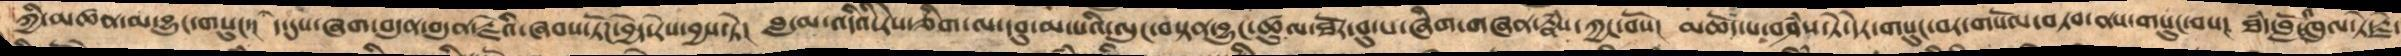ཀྱི་མཚན་མ་བྱུང་གསུང་།  དེ་དུས་ཞག་བདུན་བདུན་རྗེའི་ཞབས་ཏོཌ་བྱེད་རེས་བྱས་ཏེ།  བླ་མ་འདིའི་རེས་ཅིག་ལ་དབུ་མ་པའི་ལུང་བསྟན་བྱུང་ཚུལ་ཐོར་བུ་པ་ཞིག་གཞན་རྣཾས་ཀྱང་བོས།  མཆོད་པ་བཤཾས་ཏེ་དེར་གསུང་བར་གསོལ་བ་བཏབ་ནས་གསུང་བས།  ཐཾད་བློ་འཁུལ་ཏེ་རྗེ་
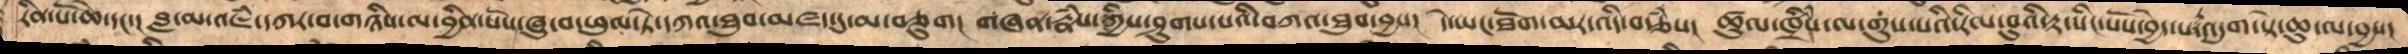རིན་པོ་ཆེ་དང་།  བླ་མ་འཇཾ་དཀར་བ་གཉིས་ལ་བྱིན་པོས་ཞུ་བ་ཕུལ་ཏེ་དཀའ་ཐུབ་མཛད་དུ་མ་བཅུག།  གཞན་རྣཾས་ཀྱིས་ཤུགས་པའི་དཀའ་ཐུབ་བྱས།  དེ་ཡང་ཐོག་མར་འདི་བརྩཾས།  ཚུལ་ཁྲིཾས་ལ་གུས་པས་རིལ་བུའི་རྟ་སིང་པོས་བྱེད་པ་འདུག་སྟེ་ཆུ་ལ་བྱས།
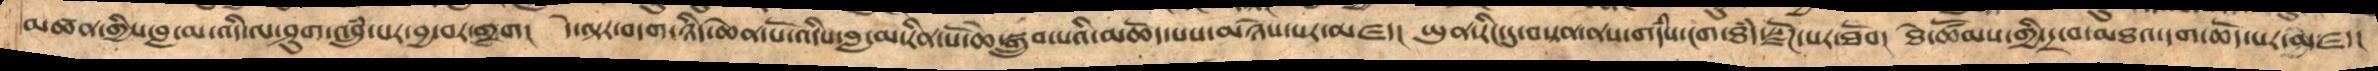མཚན་གྱིས་བླ་མ་འདི་ལ་ཤུག་འབྲུཾ་པ་བྱ་བར་གྲག།  དེ་ལྟར་བདག་ཉིད་ཆེན་པོ་འདིས་བླ་མ་རིན་པོ་ཆེ་སྒྲུབ་པའི་མཆོད་པས་མཉེས་པར་མཛད།  ཡུན་རིང་དུ་བསྟན་ནས་གདཾས་ངག་ཐཾད་སྫོཌ་པར་ཐོབ།  ཐེ་ཚོམས་གྱི་དྲ་བ་མཐའ་དག་ཆོད་པར་མཛད།
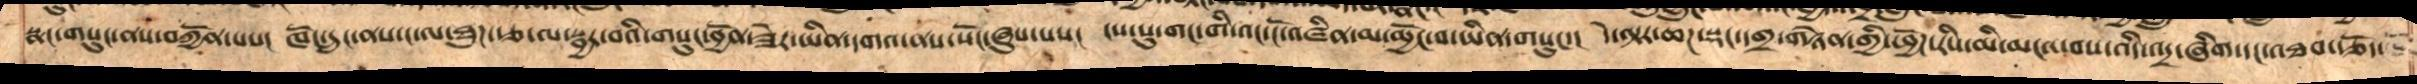སྣང་གསུང་ནས་བཀྱོན་པས། ཁོང་དྲུང་ནས་ང་ལ་ཐུཌ་རྩ་ལ་སྦྱར་བའི་གསུང་བྱོན་ཟེར་ཡིན་དགའ་ནས་སོང་ཞུས་པས།  ངས་སུ་གང་གི་འང་ངོ་འཛིན་མ་མྱོང་བ་ཡིན་གསུང་། དེ་ལྟར་ཆཌ་སྡང་དགྲ་གཉེན་གྱི་ཕྱོཌ་རིས་མི་མངའ་བས་འདི་འདྲ་ཞིག་དང་འཐབ་རྩོད་
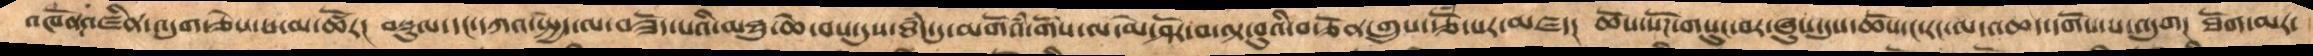འཁོན་འཛིན་འདུག་ཅེས་པ་མ་ཚོར།  བསྡུལ་དང་དཀའ་སྤྱད་ལ་བཟོད་པའི་མཐུ་ཆེ་བས་དུས་ཐཾད་དུ་མགོའཾ་གོས་ལ་མེ་ཤོར་བ་ལྟ་བུའི་བརྩོན་འགྲུས་རྩོཾ་པར་མཛད།  ཆོས་སོཌ་གསུང་བར་ཞུས་དུས་ཆོས་ང་རང་ལ་འཆད་དགོས་པར་འདུག  ཐོག་མར་
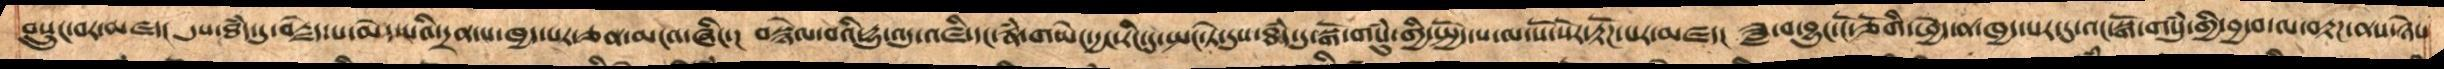བསྲུང་བར་མཛད།  དུས་ཐཾད་དུ་བརྗེད་པ་མེད་པའི་དྲན་པ་ཁྱད་པར་ཅན་མངའ་ཞིང་།  བསྙེལ་བའི་དྱུ་འདུ་འཛི་དང་རྣཾ་གཡེང་དྱང་རིང་དུ་སྤང་ཏེ་དུས་ཐཾད་དུ་སྒོ་གསུཾ་གྱི་སྤྱོད་པ་ལ་སོ་སོར་རྟོཌ་པར་མཛད།  ཟླ་བ་བྱུང་ངོ་ཅོགི་ཕྱེད་ན་ཁྱད་པར་དུ་འང་སྒོ་གསུཾ་གྱི་བྱ་བ་ལ་བརྟཌ་ནས་ཉེས་
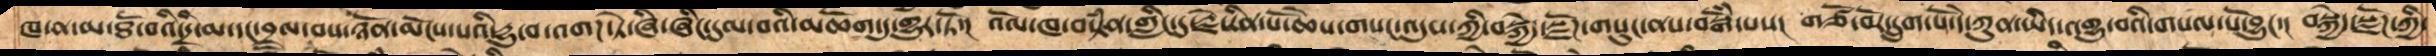ཁ་ན་མ་ཐོ་བའི་དྲི་མ་དང་བྲལ་བས་ཉོན་མོངས་པའི་དྱུ་བ་འགཌ་ཏེ་ཞི་ཞིང་དུལ་བའི་མཆོག་ཏུ་གྱུར་ཏོ་།  འོལ་ཁ་བསྟཾན་་གླིང་དུ་རྗེ་རིན་པོ་ཆེས་གསང་འདུས་ཀྱི་བསྐྱེད་སྫོཌ་གསུང་ནས་བསྒོཾ་པས།  གཙོ་བོར་དྲུག་པོ་དེ་ཀུན་ཡིད་འགྱུ་བའི་གསལ་པོ་བྱུང་།  བསྐྱེད་སྫོཌ་ཀྱི་
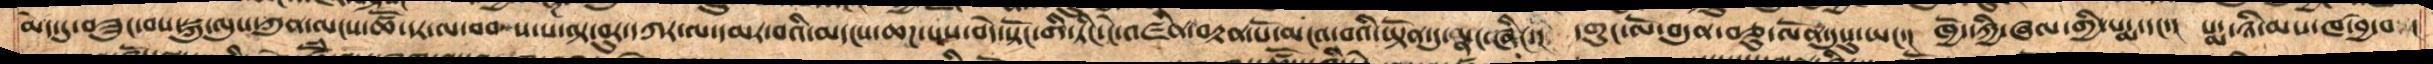མེད་དུ་བཟུང་བས་སྐུ་ལུས་ཀུན་ལངས་ཚོ་དར་ལ་བབ་པ་ས་ལྟ་བུར་དཀར་ལ་དམར་བའི་མདངས་ཆཌ་པས་བདེ་སྟོང་གི་ཏིང་ངེ་འཛིན་བརྟན་པོ་མངའ་བའི་་ཡྟོན་དུ་སྣང་ཞིང༌།  དགུང་ལོ་བདུན་བཅུ་ལོན་དུསུ་ཡང་།  ཁྱོད་ཀྱི་ཞལ་གྱི་པདྨ་དང་།  པདྨ་ཉི་མས་ཁ་བྱེ་བ །
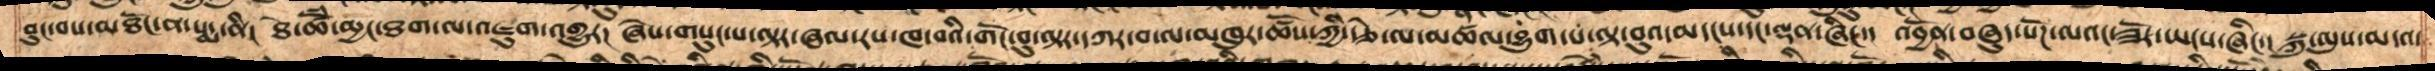བུང་བས་མཐོང་ནས་པདྨ་ནི།  ཐེ་ཚོཾ་མྱང་ཐག་ལ་འཇུག་འགྱུར།  ཞེས་གསུངས་པ་ལྟར་ཞལ་རས་ཁ་བའི་གོང་བུ་ལྟར་དཀར་བ་ལ་མཁུར་ཚོས་ཀྱི་རྩེ་ལ་མཚལ་བྱུག་པ་ལྟ་བུའ་མདངས་དང་ལྡན་ཞིང་།  འབྱོན་བཞུད་སོཌ་ལའང་ཟོར་ཡངས་ཞིང་།  སྐུ་ལུས་མདའ་
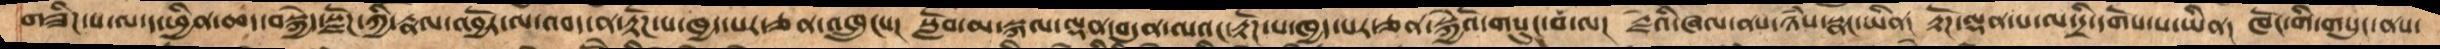གཟིཌ་པ་ལ་ད་ཕྱིན་ཆད་བསྐྱེད་སྫོཌ་ཀྱི་རྣལ་འབྱོར་ལ་འབད་ན་རྟོཌ་པ་ཁྱད་པར་ཅན་འཁྲུངས།  སློབ་མ་སྐལ་ལྡན་བདུན་ལའང་རྟོཌ་པ་ཁྱད་པར་ཅན་སྐྱེའོ་གསུང་བ་ལ།  རྗེའི་ཞལ་ནས་ཉཾས་སྣང་ཡིན།  རྟོཌ་ལྡན་པ་ལ་དྲི་དགོས་པ་ཡིན།  ཁོང་གི་གསུང་ནས་
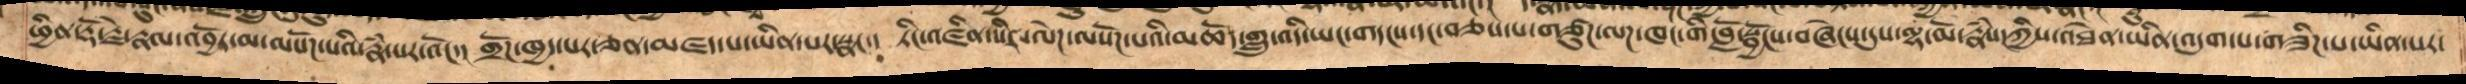ཕྱིན་རྡོ་རྗེ་རྣལ་འབྱོར་མ་ལསོཌ་པའི་རྣཾ་པར་འོང་། གྲོཌ་ཁྱད་པར་ཅན་མཛད་པ་ཡིན་པར་སྣང་། ཏིང་འཛིན་སིར་ལེཌ་ལསོཌ་པའི་མཆོད་གླུ་འདི་ཡང་གདངས་དང་བཅས་པ་གཙུཌ་ལཌ་ཁང་གི་བློ་སྦྱོངས་བཞེངས་དུས་ལྷ་མོ་རྣཾས་ཀྱིས་འཐེན་ཡིན་འདུག་པ་གཟིཌ་པ་ཡིན་པར་
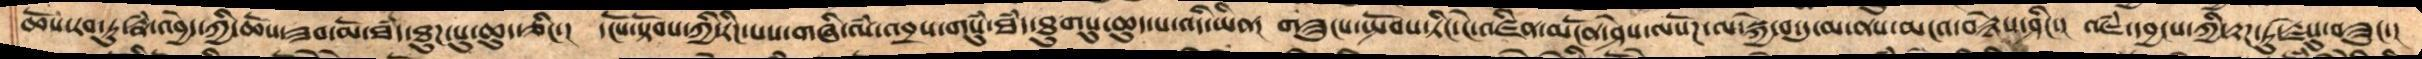ཆོས་རབ་ཏུ་རྣཾ་འབྱེད་ཀྱི་ཆོས་ཟབ་མོ་ཐཾད་ཐུཌ་སུ་ཆུད་ཅིང་།  དངོས་སྟོབས་ཀྱི་རིཌ་པས་གཞི་ལཾ་འབྲས་གསུཾ་ཐཾད་ཐུགསུ་ཆུད་པ་འདི་ཡིན།  གཟུངས་སྤོབས་ཏིང་ངེ་འཛིན་མངོན་ཤེས་ལསོཌ་ལ་སྐྱེ་བ་དུ་མ་ནས་མངའ་བརྙེས་ཤིང་།  འཇཾ་དབྱངས་ཀྱི་རྟཌ་ཏུ་རྗེསུ་བཟུང་།
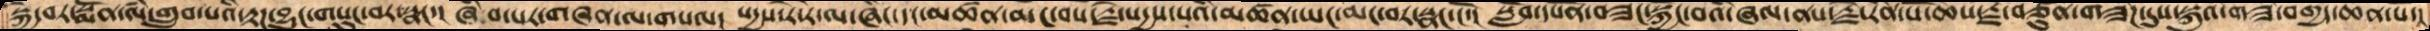སྐྱེ་བར་སྨོན་ལཾ་གྲུབ་པའི་རྟཌ་བྱུང་གསུང་བར་སྣང་། ཞིབ་པར་གཞན་ལ་གསལ། སདྱས་རེ་རེ་ལ་ཞིང་དང་མཚན་མང་བས་རྗེ་སདྱས་པའི་མཚན་ཡང་མང་བར་སྣང་ངོ་། སློབ་དཔོན་བཟང་སྐྱོང་བའི་ཞལ་ནས་རྗེ་རིན་པོ་ཆེས་རྗེ་བཙུན་གཟིཌ་དུས་སྐུའི་གཟ་བགྱིད་ཆེན་པོ་
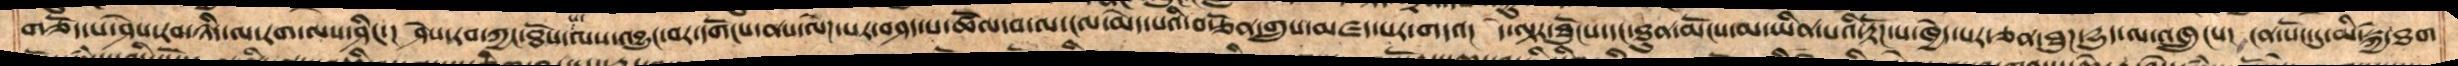གཅོད་པ་ཤེས་རབ་ཉིད་ལ་རག་ལས་ཤིང་། ཤེས་རབ་ཀྱང་ཐོས་པ་ལས་འབྱུང་བར་དགོངས་ནས་ལེཌ་པར་བཤད་པ་ཚོལ་བ་ལ་ངལ་མེད་པའི་བརྩོན་གྲུས་མཛད་པར་གདའ།  དེ་ལྟར་ཐོུངས་དང་ཐུན་མོངས་མ་ཡིན་པའི་རྟོཌ་པ་ཁྱེད་པར་ཅན་ཐུཌ་དྱུད་ལ་འཁྲུངས།  ངན་སོང་དུ་མི་སྐྱེ་ཐག
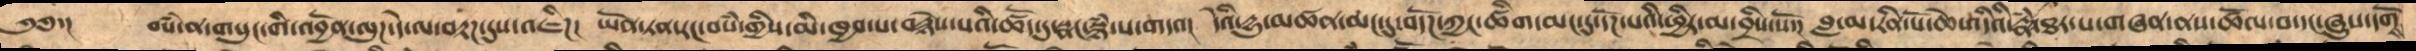༄༅་།  བསཾ་ན་གསུང་གི་འབྱོན་ལུཌ་དེ་ལ་བརྟཌ་དུས་འཇིཌ། ཡོན་ཏན་རང་བསཾ་གྱིས་མི་ཁྱབ་པ་བརྙེས་པའི་ཚོད་དུ་སྣང་སྙཾ་པ་གདའ། དེའི་དྱུ་མཚན་མང་དུ་བོདཌ་ཀྱང་ཚིག་མང་དུ་དོཌ་པའི་ཕྱིར་མ་བྲིས་སོ་།  བླ་མ་རིན་པོ་ཆེ་འདིའི་རྣཾ་ཐར་པ་གཞན་ནས་ཚོལ་བ་དང་ཞུས་དགོས
